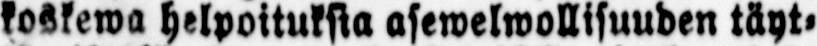koskewa helpotuksia asewelwollisuuden täyt-
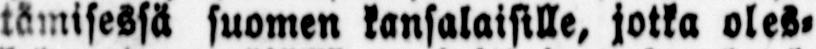tämisessä suomen kansalaisille, jotka oles-
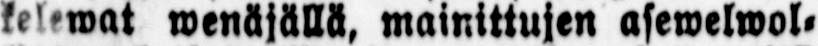kelewat wenäjällä, mainittujen asewelwol-
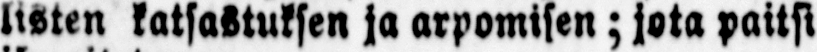lisien katsastuksen ja arpomisen; jota paitsi
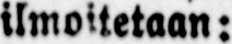ilmoitetaan;
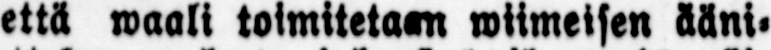että waali toimitetaan wiimeisen ääni-
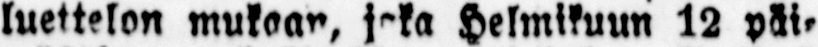luettelon mukaan, joka Helmikuun 12 päi-
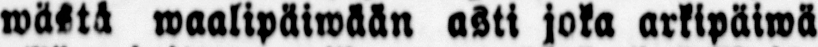wästä waalipäiwään asti joka arkipäiwä
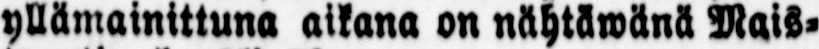yllämainittuna aikana on nähtäwänä Mais-
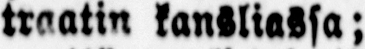traatin kansliassa;
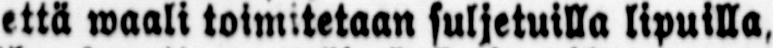että waali toimitetaan suljetuilla lipuilla,
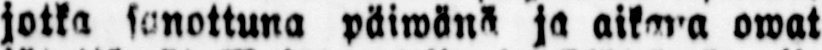jotka sanottuna päiwänä ja aikana owat
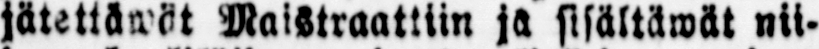jätettäwät Maistraattiin ja sisältäwät nii-
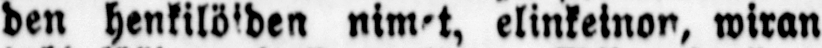den henkilöden nimet, elinkeinon, wiran
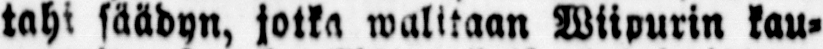tahi säädyn, jotka walitaan Wiipurin kau-
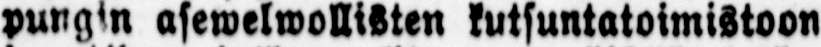pungin asewelwollisten kutsuntatoimistoon
